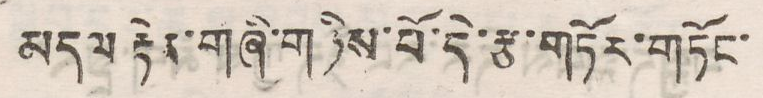མདལ རྟེན་གཞི་གཉིས་པོ་དེ་རྩ་གཏོར་གཏོང་
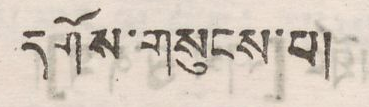དགོས་གསུངས་པ།
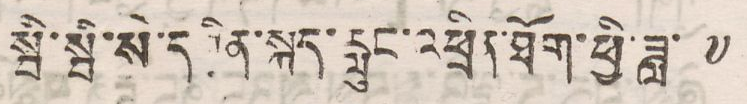སྦི་སྦི་སེ་དབྱིན་སྐད་རླུང་འཕྲིན་ཐོག་ཕྱི་ཟླ་ ༧
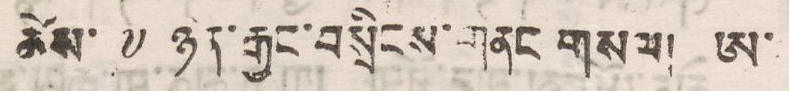ཚེས་ ༧ ཉིན་རྒྱང་བསྲིངས་གནང གསལ། ཨ་
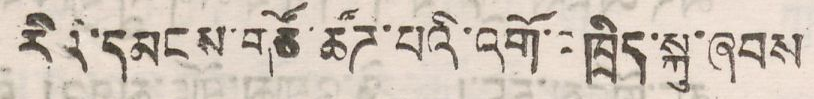རིའི་དམངས་གཙོ་ཚོཌ་པའི་འགོ་འཁྲིད་སྐུ་ཞབས
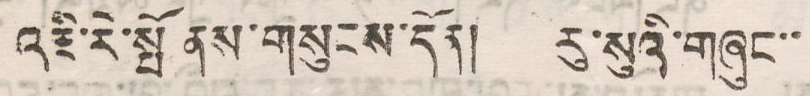འཇི་རེ་སྤོ ནས་གསུངས་དོན། རུ་སུའི་གཞུང་་
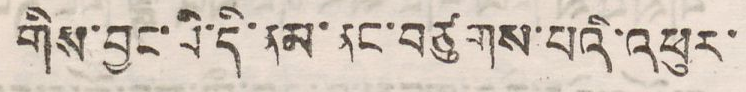གིས་བྱང་བི་དི་ནམ་ནང་བཙུགས་པའི་འཕུར་
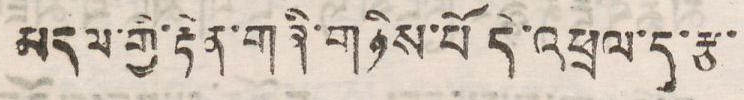མདལ་གྱི་རྟེན་གཞི་གཉིས་པོ དེ་འཕྲལ་དུ་རྩ་
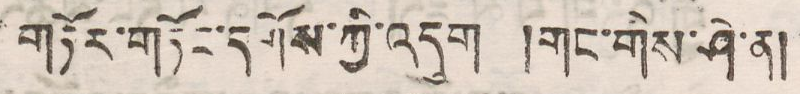གཏོར་གཏོང་དགོས་ཀྱི་འདུག །གང་གིས་ཤེ་ན།
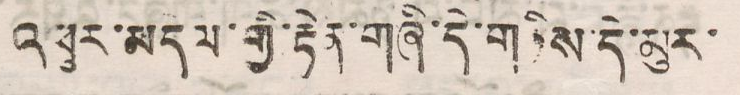འཕུར་མདལ་གྱི་རྟེན་གཞི་དེ་གཉིས་དེ་མུར་
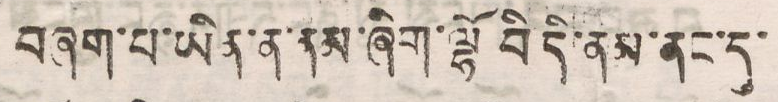བཞག་པ་ཡིན་ན་ནམ་ཞིག་ལྷོ བི དི་ནམ་ནང་དུ་
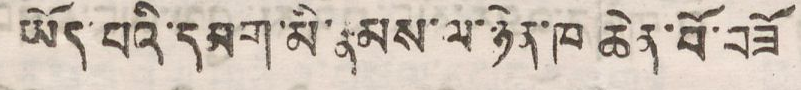ཡོད་པའི་དམག་མི་རྣམས་ལ་ཉེན་ཁ ཆེན་པོ་བཟོ
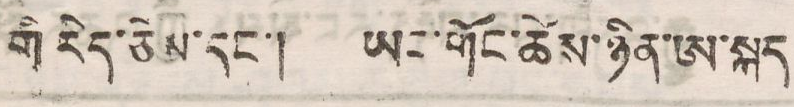གི རེད་ཅེས་དང་།   ཡང་གོང་ཚེས་ཉིན་ཨ་སྐད
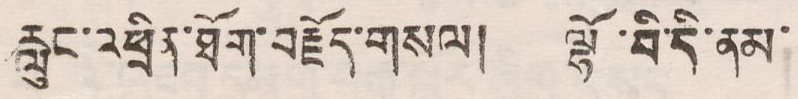རླུང་འཕྲིན་ཐོག་བརྗོད་གསལ། ལྷོ་བི་དི་ནམ་
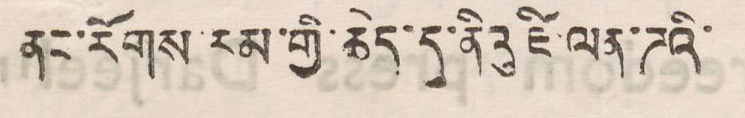ནང་རོགས་རམ་གྱི་ཆེད་དུ་ནིའུ་ཛི་ལན་ཌའི་
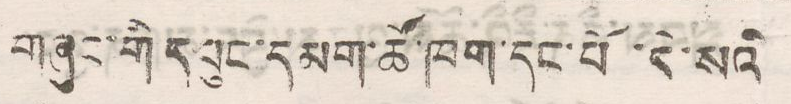གཞུང་གི དཔུང་དམག་ཚོ་ཁག་དང་པོ་དེ་སའི
